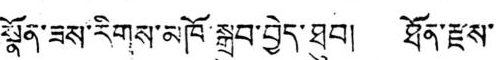སྣོན་ཟས་རིགས་མཁོ་སྒྲུབ་བྱེད་ཐུབ། ཐོན་རྫས་
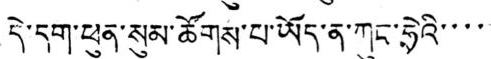དེ་དག་ཕུན་སུམ་ཚོགས་པ་ཡོད་ན་ཀུང་ཧྲེའི་་་་་
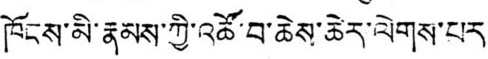ཁོངས་མི་རྣམས་ཀྱི་འཚོ་བ་ཆེས་ཆེར་ལེགས་པར་
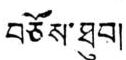བཅོས་ཐུབ།
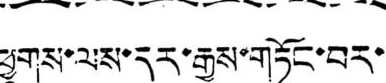ཕྱུགས་ལས་དར་རྒྱས་གཏོང་བར་
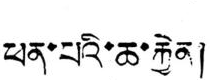ཕན་པའི་ཆ་རྐྱེན།
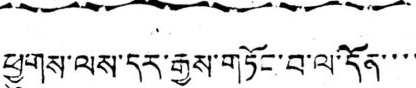ཕྱུགས་ལས་དར་རྒྱས་གཏོང་བ་ལ་དོན་་་་
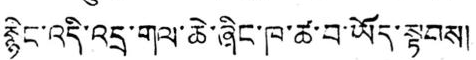སྙིང་འདི་འདྲ་གལ་ཆེ་ཞིང་ཁ་ཚ་བ་ཡོད་སྟབས།
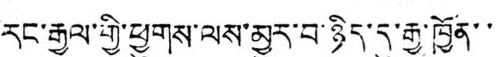རང་རྒྱལ་གྱི་ཕྱུགས་ལས་མྱུར་བ་ཉིད་དུ་རྒྱ་ཁྱོན་་
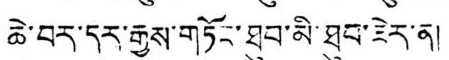ཆེ་བར་དར་རྒྱས་གཏོང་ཐུབ་མི་ཐུབ་ཟེར་ན།
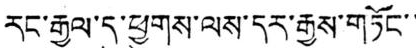རང་རྒྱལ་དུ་ཕྱུགས་ལས་དར་རྒྱས་གཏོང་་
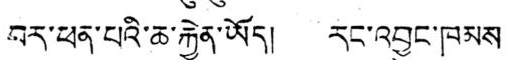བར་ཕན་པའི་ཆ་རྐྱེན་ཡོད། རང་འབྱུང་ཁམས
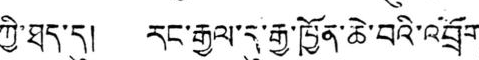ཀྱི་ཐད་དུ། རང་རྒྱལ་དུ་རྒྱ་ཁྱོན་ཆེ་བའི་འབྲོག་
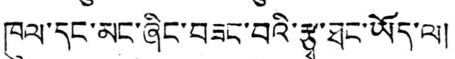ཁུལ་དང་མང་ཞིང་བཟང་བའི་རྩྭ་ཐང་ཡོད་ལ།
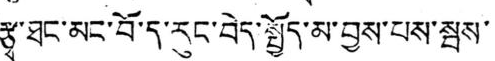རྩྭ་ཐང་མང་བོ་ད་རུང་བེད་སྤྱོད་མ་བྱས་པས་སྦས་
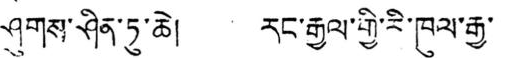ཤུགས་ཤིན་ཏུ་ཆེ། རང་རྒྱལ་གྱི་རི་ཁུལ་རྒྱ་
